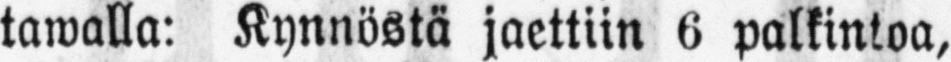tawalla: Kynnöstä jaettiin 6 palkintoa,
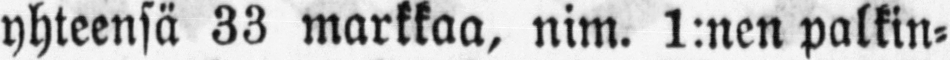yhteensä 33 markkaa, nim. 1:nen palkin-
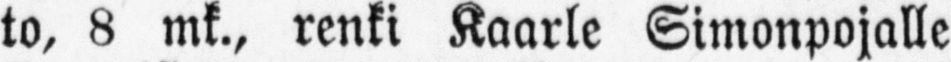to, 8 mk., renki Kaarle Simonpojalle
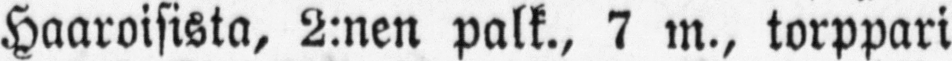Haaroisista, 2:nen palk., 7 m., torppari
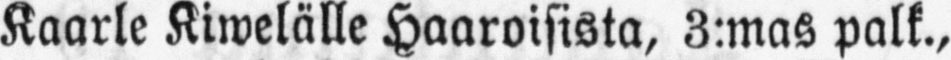Kaarle Kiwelälle Haaroisista, 3:mas palk.,
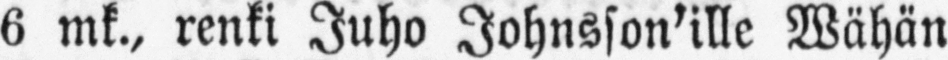6 mk., renki Juho Johnsson'ille Wähän
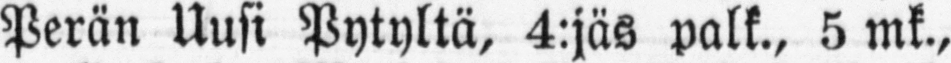Perän Uusi Pytyltä, 4:jäs palk., 5 mk.,
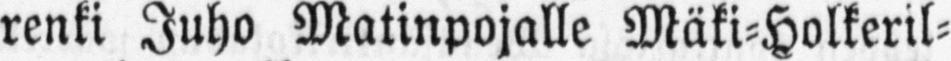renki Juho Matinpojalle Mäki-Holkeril-
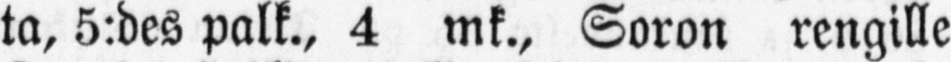ta, 5:des palk., 4 mk., Soron rengille
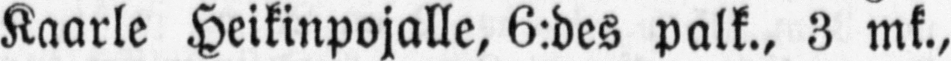Kaarle Heikinpojalle, 6:des palk., 3 mk.,
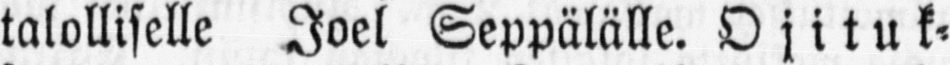talolliselle Joel Seppälälle. Ojituk-
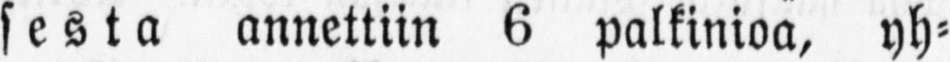sesta annettiin 6 palkinioa, yh-
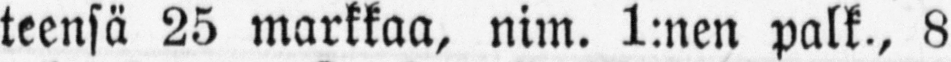teensä 25 markkaa, nim. 1:nen palk-, 8
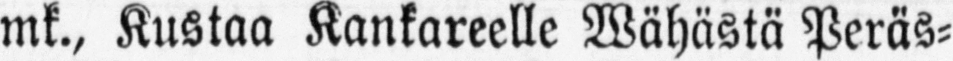mk., Kustaa Kankareelle Wähästä Peräs-
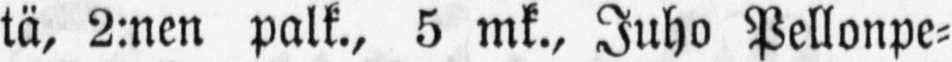tä, 2:nen palk., 5 mk., Juho Pellonpe-
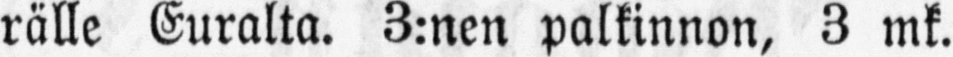rälle Euralta. 3:nen palkinnon, 3 mk.
